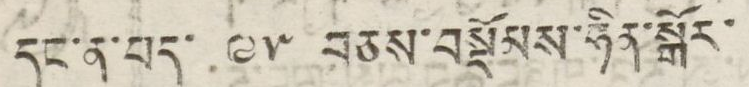དང་ན་པད་ ༩༥ བཅས་བསྡོམས་ཧིན་སྒོར་
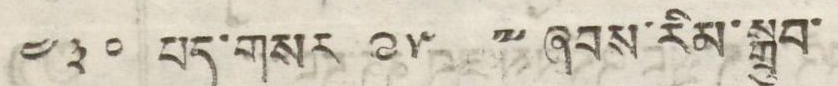༤༣༠ པད་གསར ༩༥ ༸ཞབས་རིམ་སྒྲུབ་
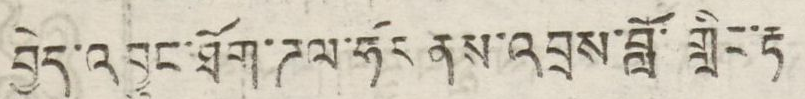བྱེད་འབྱུང་ཐོག་ཌལ་ཧོར་ནས་འབྲས་བློ་གླིང་རྟ་
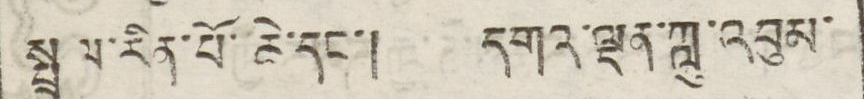སྤྲུལ་རིན་པོ་ཆེ་དང་། དགའ་ལྡན་ཀླུ་འབུམ་
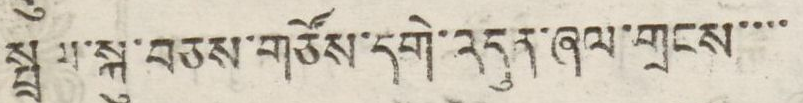སྤྲལ་སྐུ་བཅས་གཙོས་དགེ་འདུན་ཞལ་གྲངས་་་་
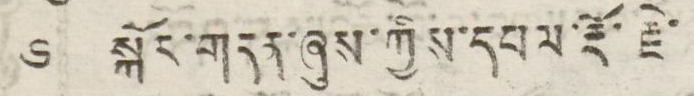༦ སྐོར་གདན་ཞུས་ཀྱིས་དཔལ་རྡོ་རྗེ་
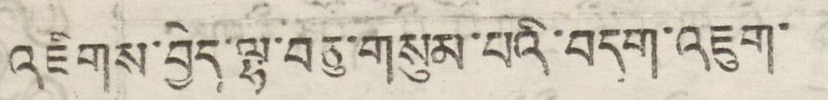འཇིགས་བྱེད་ལྷ་བཅུ་གསུམ་པའི་བདག་འཇུག་
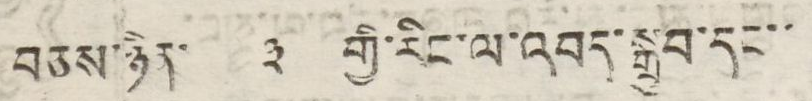བཅས་ཉིན་ ༣ གྱི་རིང་ལ་འབད་སྒྲུབ་དང་་
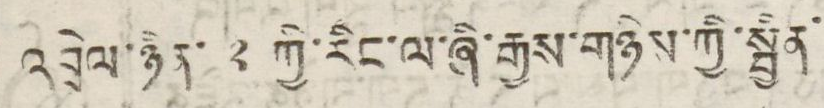འབྲེལ་ཉིན་ ༢ ཀྱི་རིང་ལ་ཞི་རྒྱས་གཉིས་ཀྱི་སྦྱིན་
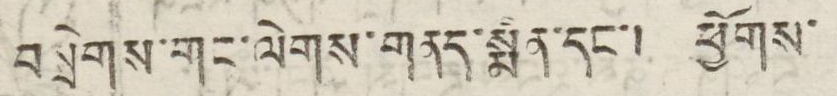བསྲེགས་གང་ལེགས་གནད་སྨིན་དང་། ཕྱོགས་
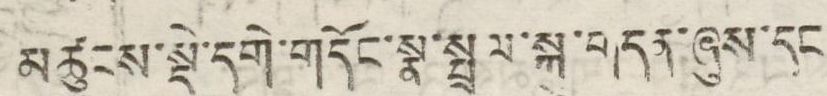མཚུངས་སྡེ་དགེ་གདོངས་སྣ་སྤྲལ་སྐུ་གདན་ཞུས་དང
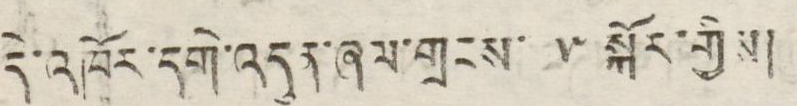དེ་འཁོར་དགེ་འདུན་ཞལ་གྲངས་ ༥ སྐོར་གྱིས།
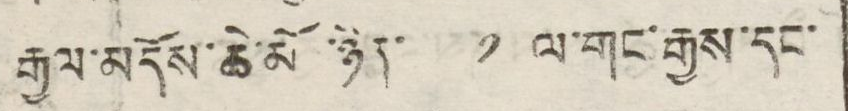རྒྱལ་མདོས་ཆེ་མོ ་ཉིན་ ༡ ལ་གང་རྒྱས་དང་
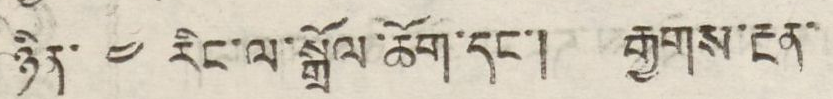ཉིན་ ༤ རིང་ལ་སྒྲོལ་ཆོག་དང་། རྒྱགས་རྔན་
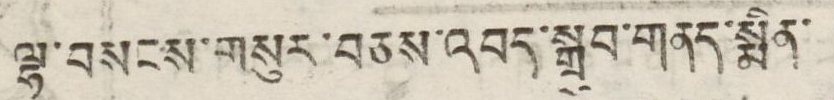ལྷ་བསངས་གསུར་བཅས་འབད་སྒྲུབ་གནད་སྨིན་
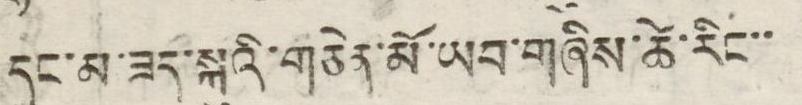དང་མ་ཟད་སྐུའི་གཅེན་པོ་ཡབ་གཞིས་ཚེ་རིང་་
